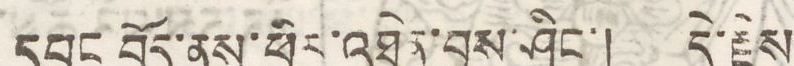དཔུང བོད་ནས་ཕྱིར་འཐེན་བྱས་ཤིང་། དེ་རྗེས
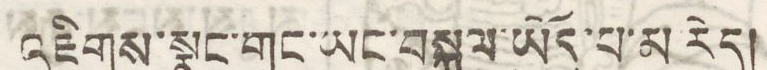འཇིགས་སྣང་གང་ཡང་བསྐུལ་ཡོད་པ་མ རེད།
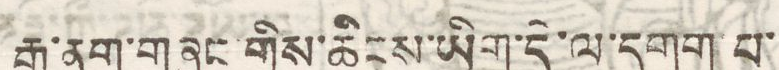རྒྱ་ནག་གཞུང་གིས་ཆིངས་ཡིག་དེ་ལ་དགག་པ་
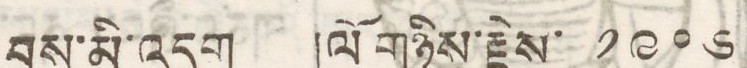བྱས་མི་འདུག ལོ་གཉིས་རྗེས་ ༡༩༠༦
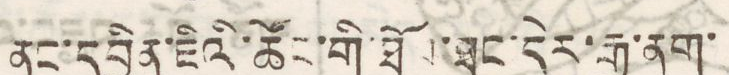ནང་དབྱིན་ཇིའི་ཚོང་གི་ཐོབ་ཐང་དེར་རྒྱ་ནག་
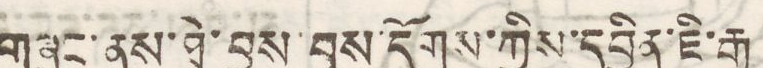གཞུང་ནས་ཐེ་བྱུས་བྱས་དགོས་ཀྱིས་དབྱིན་ཇི་རྒྱ
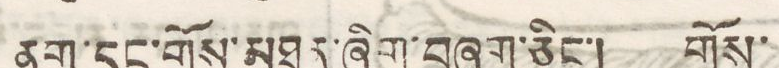ནག་དང་གྲོས་མཐུན་ཞིག་བཞག་ཅིང་། གྲོས་
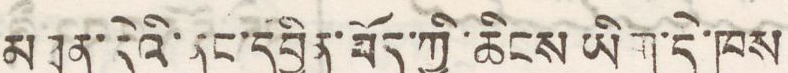མཐུན་དེའི་ནང་དབྱིན་བོད་ཀྱི་ཆིངས ཡིག་དེ་ཁས
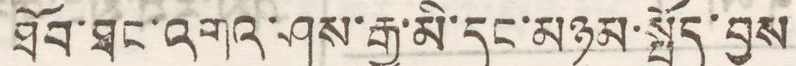ཐོབ་ཐང་འགའ་ཤས་རྒྱ་མི་དང་མཉམ་སྤྱོད་བྱས
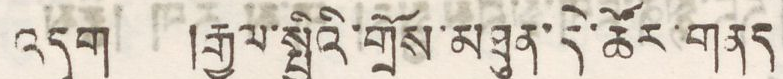འདུག །རྒྱལ་སྤྱིའི་གྲོས་མཐུན་དེ་ཚོར་གནད
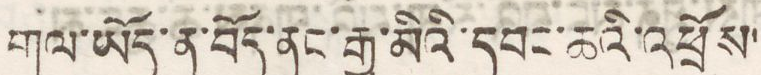གལ་ཡོད་ན་བོད་ནང་རྒྱ་མིའི་དབང་ཆའི་འཕྲོས་
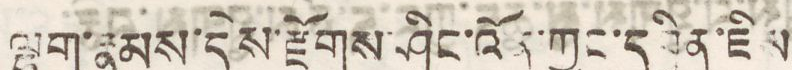ལྷག་རྣམས་དེས་རྫོགས ཤིང་འོན་ཀྱང་དབྱིན་ཇིས་
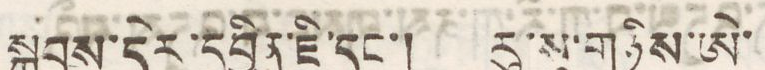སྐབས་དེར་དབྱིན་ཇི་དང་། རུ་སུ་གཉིས་ཨེ་
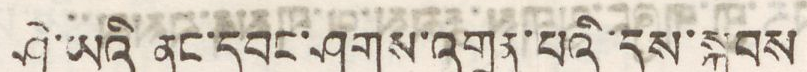ཤེ་ཡའི་ནང་དབང་ཤུགས་འགྲན་པའི་དུས་སྐབས
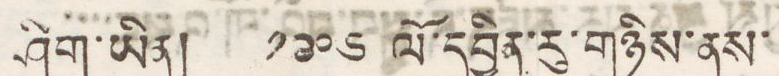ཤིག་ཡིན། ༡༩༠༦ ལོ་དབྱིན་རུ་གཉིས་ནས་
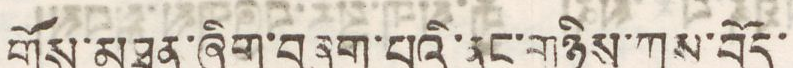གྲོས་མཐུན་ཤིག་བཞག་པའི་ནང་གཉིས་ཀས་བོད་
